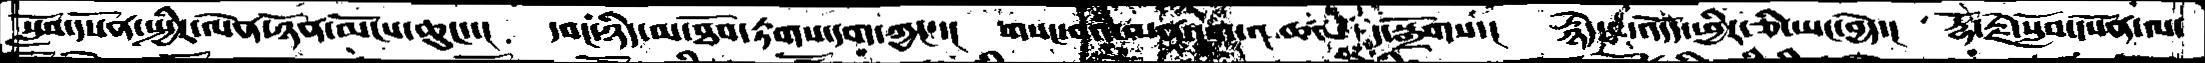སློབ་དཔོན་སྤྱིར་ལེན་ཉོན་མོངས་ཆུང་་།  དབང་ཉིད་མ་ཐོབ་རྟགས་དག་ཀྱང་་། གསང་བའི་མན་ངག་འཚལ་བར་སྒྲོགས་། རྙེད་དང་འདོད་ཕྱིར་ཅི་ཡང་བྱེད་།  རྡོ་རྗེ་སློབ་དཔོན་ལ་
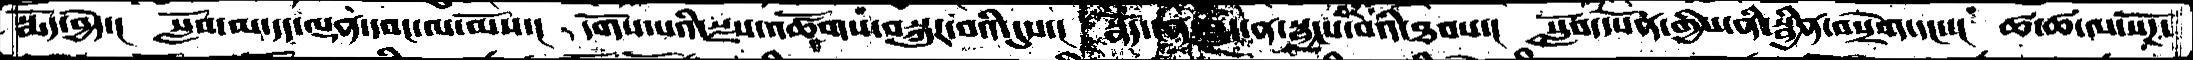སྨོད་བྱེད་།  སློབ་མ་དད་ལྡན་དབང་ལ་མོས་། དགོས་པའི་སྫས་འཚོགས་བསྐུར་བའི་དུས་། སྣོད་ན་བྱུང་ན་སྦྱངས་བའི་ཐབས་། སློབ་དཔོན་གྱིས་ནི་སྦྱིན་བསྲེག་དང་་།  ཚ་ཚ་ལ་སོཌ་
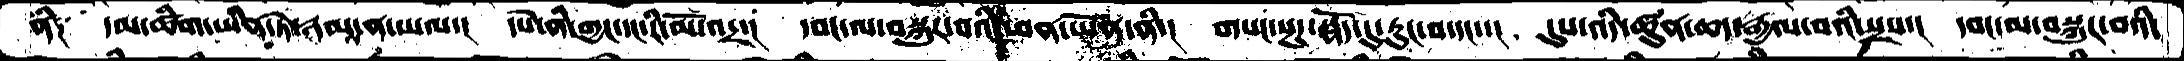ནི༑  དམ་ཚིག་ཡིན་ཏེ་རྣམས་ན་ཡལ་། དཔེ་ནི་གྱང་དང་རི་མོ་འདྲ་། དབང་ལ་བསྐུར་བའི་ཕན་ཡོན་ནི་། གསང་སྔཌ་སྣོད་དུ་རུང་བ་དང་་། དུས་འདི་ཚུན་ཆད་རྒྱལ་བའི་སྲས་། དབང་མ་བསྐུར་བའི་
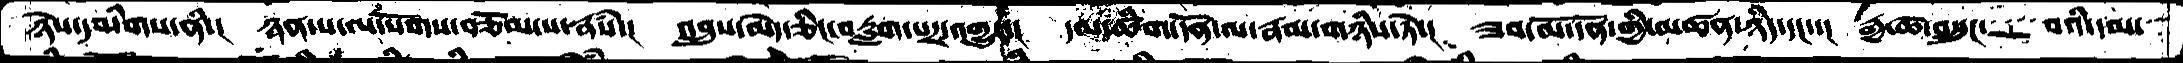ཉེས་དམིགས་ནི་། ཉན་པ་ལ་སོགས་བཅོམ་པ་རྣཾས་། འབྲུས་མེད་ཅིང་བརླག་པར་འགྱུར་།  དམ་ཚིག་དོན་ལ་རྣམ་གཉིས་ཏེ་། ཟབ་མོ་དོན་གྱི་མཚན་ཉིད་དང་་།  རྒྱ་ཆེ་བསྲུང་་་་བའི་དམ་
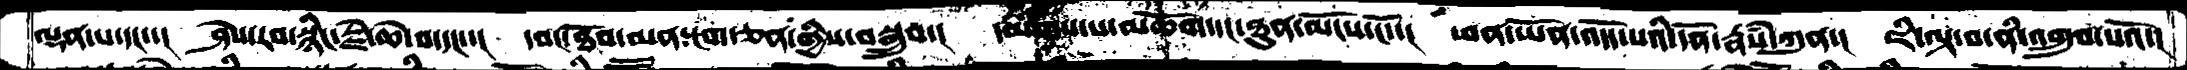ལྡན་པ་དང་་།  ཤེས་རབ་སྙིང་རྗེ་ཆེ་བ་དང་་།  དབང་ཐོབ་མན་ངག་ཅན་གྱིས་བསྒྲུབ་།  དམིགས་པ་མཆོག་དང་ཐུན་མོངས་ངོ་་།  ཕན་ཡོན་འདོད་པའི་དོན་རྣཾས་ཀུན་།  ཇི་ལྟ་བ་ནི་འགྲུབ་པའོ་།
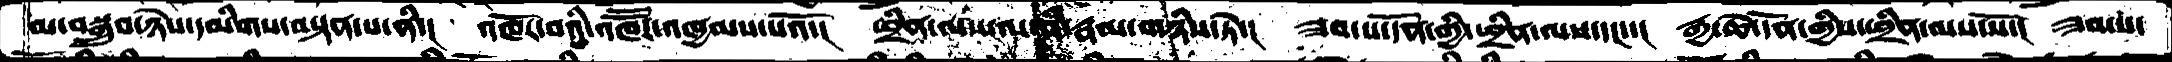མ་བསྒྲུབ་ཉེས་དམིགས་བསྟན་པ་ནི་།  འཁོར་བའི་འཁཽར་འཁྱམས་པའོ་།  ཕྲིན་ལས་ལ་ནི་རྣམ་གཉིས་ཏེ་།  ཟབ་པ་དོན་གྱི་ཕྲིན་ལས་དང་་།  རྒྱ་ཆེ་དོན་གྱིས་ཕྲིན་ལས་སོ་།  ཟབ་པ་
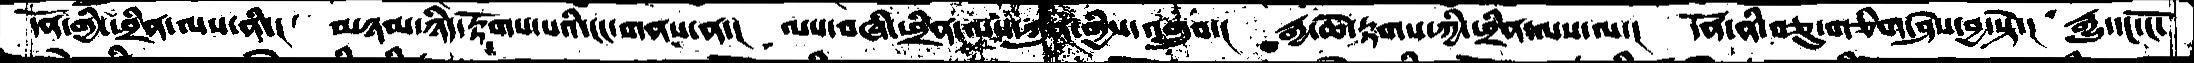དོན་གྱི་ཕྲིན་ལས་ནི་།  མཉམ་ཉིད་རྟོགས་པའི་ངང་གནས་ན་།  ལས་བཞི་ཕྲིན་ལས་ཀུན་གྱིས་འགྲུབ་།  རྒྱ་ཆེ་རྟགས་ཀྱི་ཕཕྲིན་ལས་ལ་།  དོན་ནི་བཅུ་གཅིག་ཤེས་བྱ་སྟེ་།  རྒྱུ་དང་ངོ་
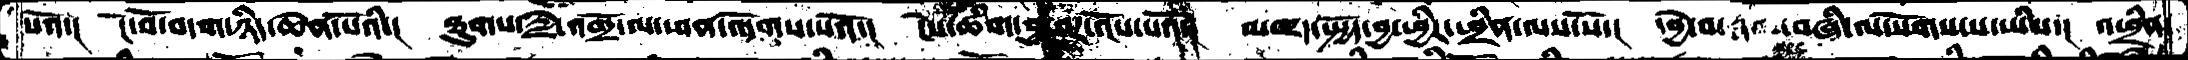པའོ་།  ངོ་བོ་བདག་ཉིད་ཆེན་པོའི་།  ཐུགས་རྗེ་འགྲོ་ལ་ཕན་འདོགས་པའོ་། ངེས་ཚིག་བྱ་བར་འོང་པའོ་། མཛད་སྤྱོད་བྱ་ཕྱིར་ཕྲིན་ལས་སོ་། དབྱེ་བ་རྣམ་བཞི་ལ་སོགས་པ་ཡིས་། འཕྲིན་
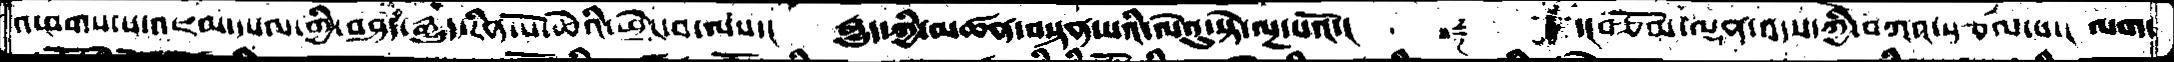འཕགས་པ་འཇམ་དཔལ་གྱི་བཤད་རྒྱུད་རིན་པོ་ཆེའི་ཕྲེང་བ་ལས་།  རྒྱུད་ཀྱི་མཚན་བསྟན་པའི་ལེའུ་སྟེ་ལྔ་པའོ་།   ༈  ་།བཅོམ་ལྡན་འདས་ཀྱི་བཀའ་སྩལ་པ་། ལག་
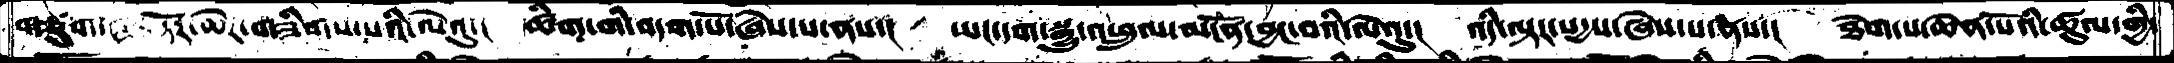གཙུག་ཏོར་ཆེར་གཟིགས་པའི་ལེའུ་།  ཚིག་གི་བདག་པོ་ཞེས་པ་ནས་། ཡང་དག་སྒྱུ་འཕྲུལ་མངོན་བྱང་བའི་ལེའུ་། འདི་ལྟར་སདྱས་ཞེས་པ་ནས་།  ཐེག་པ་ཆེན་པོའི་ཚུལ་གྱི་
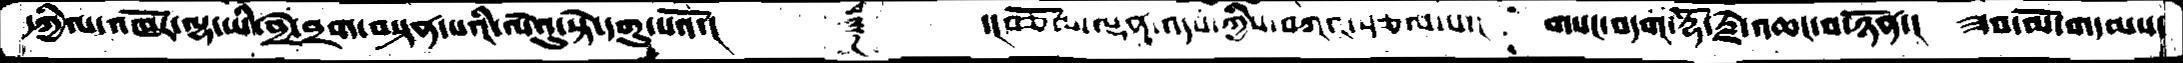དཀྱིལ་འཁོར་ལྷ་ཡི་བྱེ་བྲག་བསྟན་པའི་ལེའུ་སྟེ་དགུ་པའོ་།     ༈   ་།བཅོམ་ལྡན་འདས་ཀྱིས་བཀའ་སྩལ་པ་། གསང་བདག་རྡོ་རྗེ་འཆང་བ་ཉོན་།  ཟབ་མོ་གདམས་
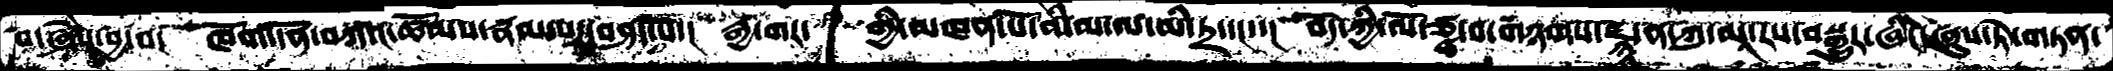བ་ཞེས་བྱ་བ།  ཁོག་དོན་བཀའ་ཚོམས་རྣམ་པར་བཤད་པ་།  རྒྱ་གར་  གྱི་མཁན་པོ་བི་མ་ལ་མི་ཏྲ་དང་་།  བོད་ཀྱི་ལོ་ཙྪ་བ་གཉགས་ཛྙ་ན་ཀུ་མཱ་རས་བསྒྱུར་ཞིང་ཞུས་ཏེ་གཏན་
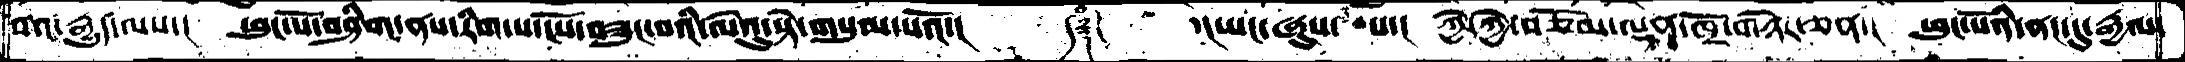བའ་རྒྱུད་ལས་།  ཕུང་པོ་བཤིག་ནས་རིག་པ་ངོས་བཟུང་བའི་ལེའུ་སྟེ་གསུམ་པའོ་།    ༼༈ཾ༽  ་།ཡང་ཞུས་ པ་།  ཀྱེ་ཀྱེ་བཅོམ་ལྡན་ཁྲོ་གཉེར་ཅན་།  ཕུང་པོའི་ནང་དུ་རྒྱལ་
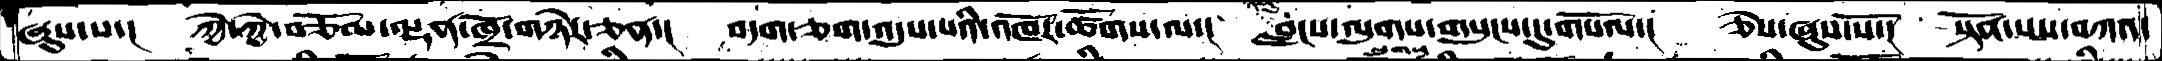ཞུས་པ་།  ཀྱེ་ཀྱེ་བཅོམ་ལྡན་ཁྲོ་གཉེར་ཅན་།  བདག་ཅག་འདུས་པའི་འཁོར་ཚོགས་ལ་།  བླངས་ལུགས་གསུངས་དུ་གསོལ་།  ཅེས་ཞུས་སོ་།  སྟོན་པས་བཀའ་
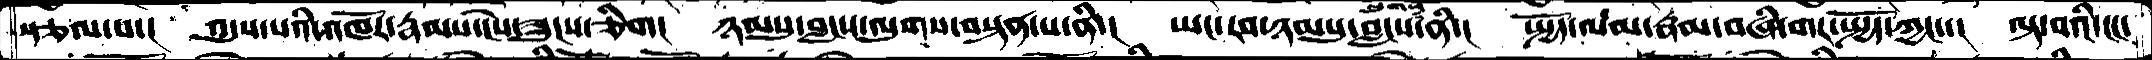སྩལ་པ་།  འདུས་པའི་འཁོར་རྣམས་ངེས་ཟུངས་ཅིག།  ཉམསུ་བླངས་ལུགས་བསྟན་པ་ནི་།  ཡང་རབ་ཉམསུ་བླངས་ལུགས་ནི་།  སྤྱོད་ལམ་རྣམ་བཞི་གར་སྤྱོད་ཀྱང་་།  ལྟ་བའི་ངང་
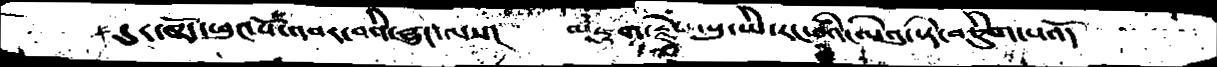དུར་ཁྲོད་ཕུང་པོ་འབར་བའི་དྱུད་ལས།   མཇུག་རྗེས་སུ་ཡི་རང་བའི་ལེའུ་སྟེ་བཅིུག་པའོ།
